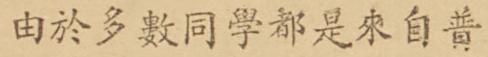由於多數同學都是來自普
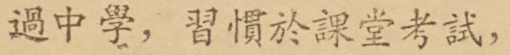過中學，習慣於課堂考試，
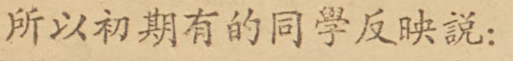所以初期有的同學反映說：
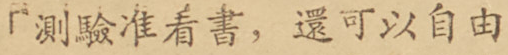「測驗准看書，還可以自由
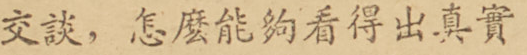交談，怎麼能夠看得出真實
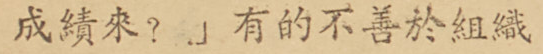成績來？」有的不善於組織
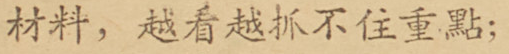材料，越看越抓不住重點；
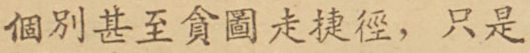個別甚至貪圖走捷徑，只是
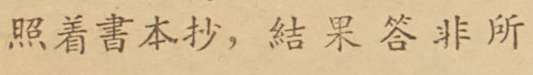照着書本抄，結果答非所
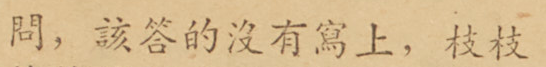問，該答的沒有寫上，枝枝
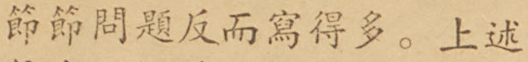節節問題反而寫得多。上述
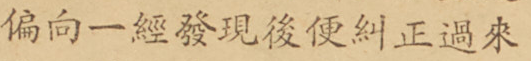偏向一經發現後便糾正過來
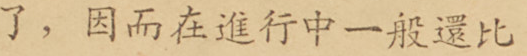了，因而在進行中一般還比
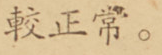較正常。
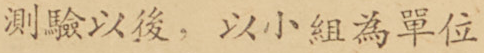測驗以後，以小組為單位
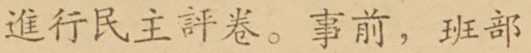進行民主評卷。事前，班部
